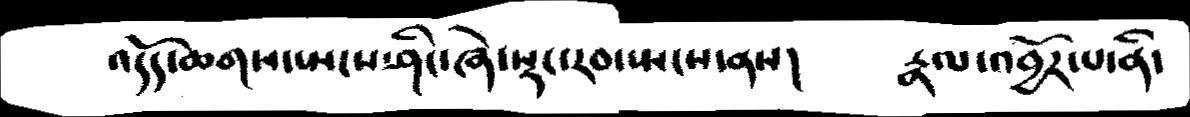འདོད་ཆགས་སྤངས་ཤིང་ཞེ་སྡང་རབ་སྤངས་ནས།   རྣལ་འབྱོར་པ་ནི་
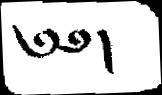༄༅།
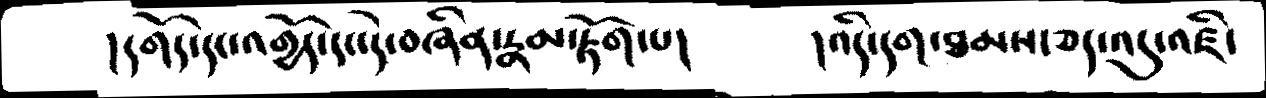།དགོད་དང་འགྱོད་དང་དེ་བཞིན་རྣམ་རྟོག་པ།  །འདི་དག་ཐམས་ཅད་འདུ་འཛི་
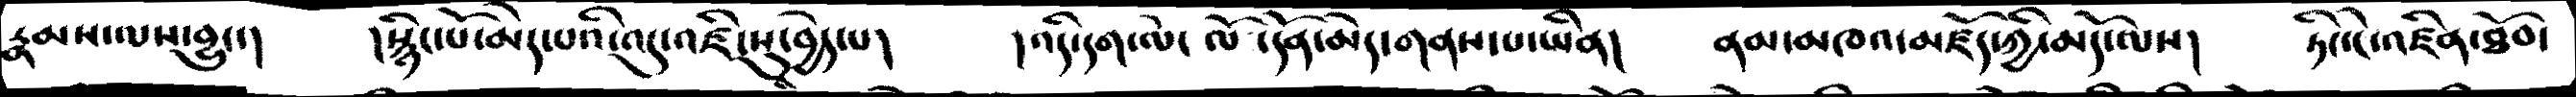རྣམས་ལས་བྱུང་།  །སྙིང་པོ་མེད་པའི་འདུ་འཛི་སུ་བྱེད་པ།  །འདི་དག་ལེ་ལོ་དོན་མེད་གནས་པ་ཡིན།  ནམ་མཁའ་མཛོད་ཀྱི་མདོ་ལས།  ཏིང་ངེ་འཛིན་ཐོབ་
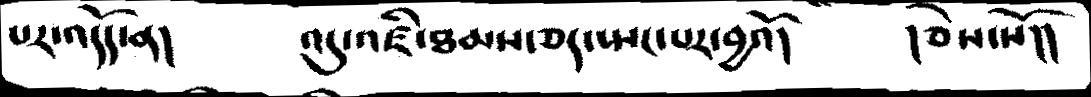པར་འདོད་ན།   འདུ་འཛི་ཐམས་ཅད་སྤང་པར་བྱའོ།  །ཅེས་སོ།།
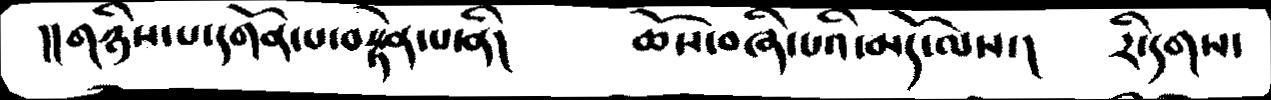།།གཉིས་པ་དགོན་པ་བསྟེན་པ་ནི།   ཆོས་བཞི་པའི་མདོ་ལས་།  རི་དགས་
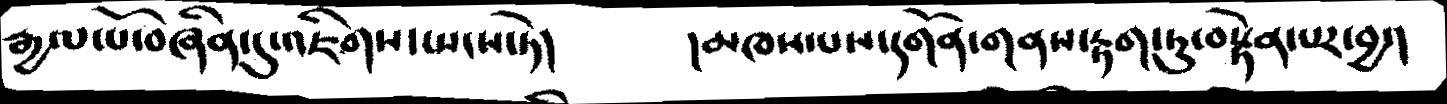རྒྱལ་པོ་བཞིན་དུ་འཇིགས་སྤངས་ཏེ།   མཁས་པས་དགོན་གནས་རྟག་ཏུ་བསྟེན་པར་བྱ་།
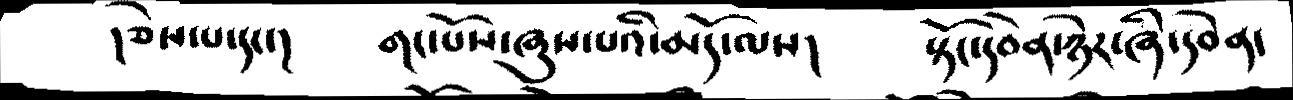།ཅེས་པ་དང་།  གང་པོས་ཞུས་པའི་མདོ་ལས།  སྟོང་དབེན་ཉེར་ཞི་དབེན་
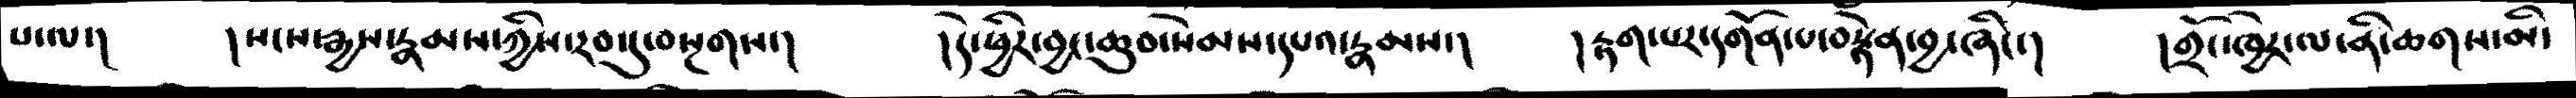པ་ལ་།  །སངས་རྒྱས་རྣམས་ཀྱིས་རབ་དུ་བསྔགས་།  །དེ་ཕྱིར་བྱང་ཆུབ་སེམས་དཔའ་རྣམས་།  །རྟག་པར་དགོན་པ་བསྟེན་བྱ་ཞིང་།  །གྲོང་ཁྱེར་ལ་ནི་ཆགས་མི་
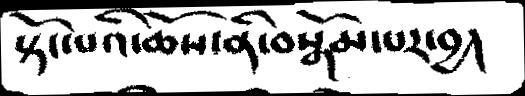སྟོང་པའི་ཆོས་ནི་བསྒོམ་པར་བྱ།
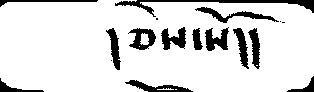།ཅེས་སོ།།
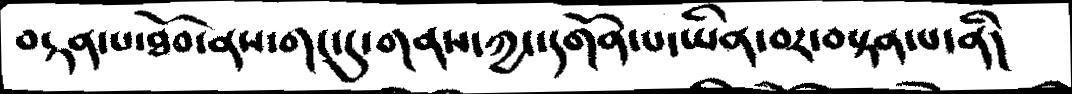བརྟན་པ་ཐོབ་ནས་གང་དུ་གནས་ཀྱང་དགོན་པ་ཡིན་བར་བསྟན་པ་ནི།
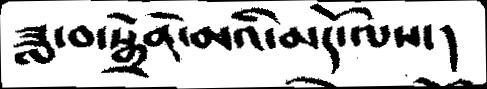ཟླ་བ་སྒྲོན་མའི་མདོ་ལས་།
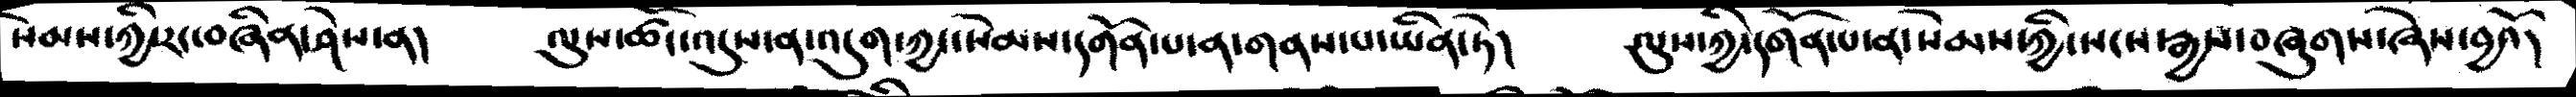སེམས་ཀྱི་རང་བཞིན་ཤེས་ན།  ལུས་ཚོར་འདུས་ན་འདུག་ཀྱང་སེམས་དགོན་པ་ན་གནས་པ་ཡིན་ཏེ།  ལུས་ཀྱི་དགོན་པ་ན་སེམས་ཀྱི་སངས་རྒྱས་བཞུགས་ཞེས་བྱའོ།
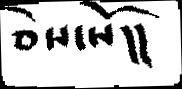ཅེས་སོ།།
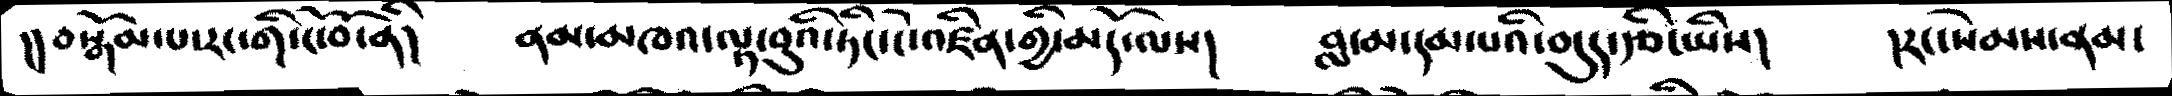།།བསྒོམ་པ་རང་གི་ངོ་བོ་ནི།  ནམ་མཁའ་ལྟ་བུའི་ཏེང་ངེ་འཛིན་གྱི་མདོ་ལས།   བླ་མ་དམ་པའི་བདུད་རྩི་ཡིས།  །རང་སེངས་ནས་
